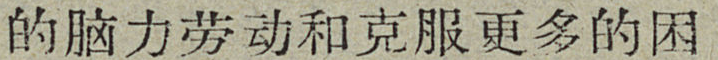的脑力劳动和克服更多的困
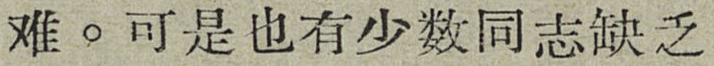难。可是也有少数同志缺乏
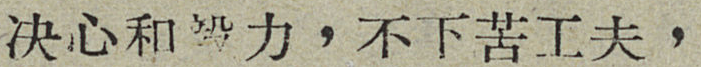决心和毅力，不下苦工夫，
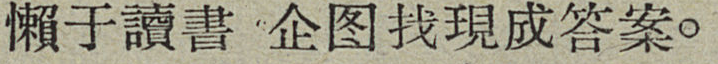懶于讀書企图找現成答案。
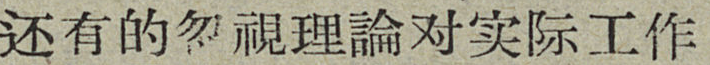还有的忽視理論对实际工作
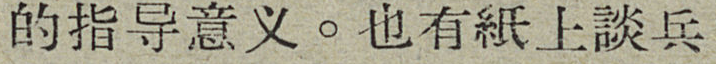的指导意义。也有紙上談兵
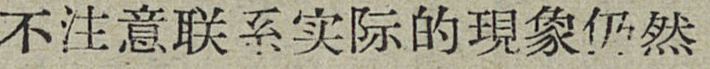不注意联系实际的現象仍然
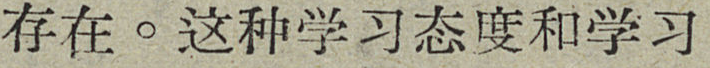存在。这种学习态度和学习
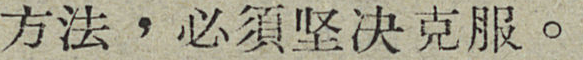方法，必須坚决克服。
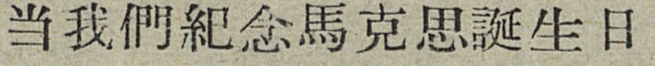当我們紀念馬克思誕生日
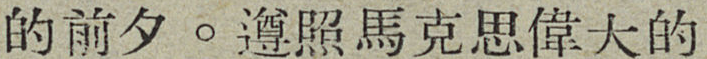的前夕。遵照馬克思偉大的
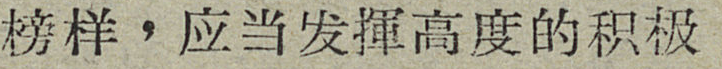榜样，应当发揮高度的积极
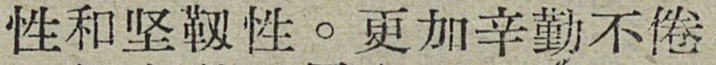性和坚靱性。更加辛勤不倦
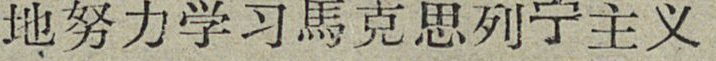地努力学习馬克思列宁主义
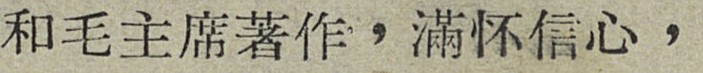和毛主席著作，滿怀信心，
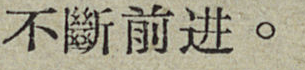不斷前进。
